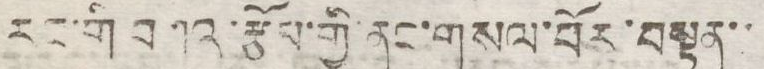རང་གི བཀའ་རྩོམ་གྱི་ནང་གསལ་བོར་བསྟན་་
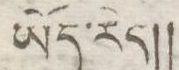ཡོད་རེད།།
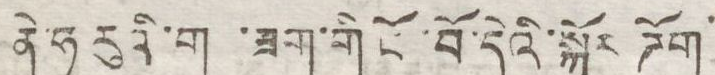ནེ་ཧ རུའི་ག ་ཟག་གི ངོ་བོ་དེའི་སྐོར ཌོག
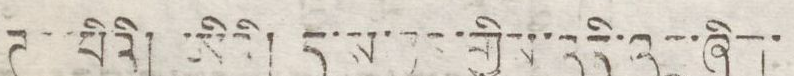ཊ ་པིའི། ཨིའི། ད་ས་ཉུང་གྱིས་འདི་འདྲ་ཞིག་
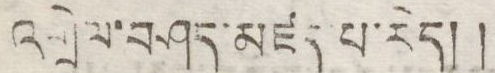འགྲེལ་བཤད་མཛད་པ་རེད། །
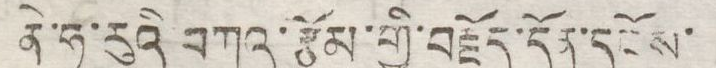ནེ་ཧ་རུའི བཀའ་རྩོམ་གྱི་བརྗོད་དོན་དངོས་
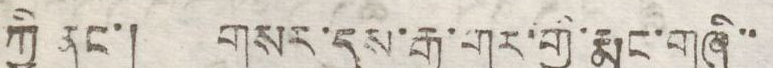ཀྱི ནང་། གསར་དུས་རྒྱ་གར་གྱི་རྨང་གཞི་་
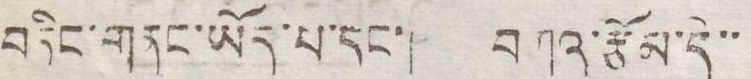བཏིང་གནང་ཡོད་པ་དང་། བཀའ་རྩོམ་དེ་་
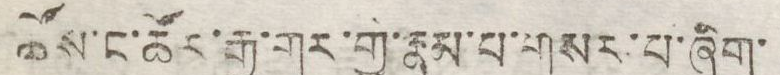ཚོས་ང་ཚོར་རྒྱ་གར་གྱི་རྣམ་པ་གསར་པ་ཞིག་
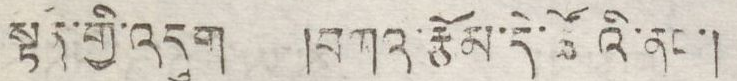སྟན་གྱི་འདུག །བཀའ་རྩོམ་དེ་ཚོའི་ནང་།
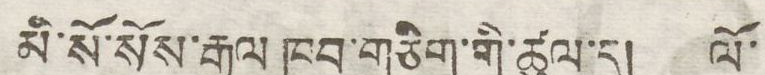མི་སོ་སོས་རྒྱལ་ཁབ་གཅིག་གི་ཚུལ་དུ། ལོ་
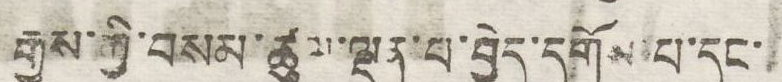རྒྱུས་ཀྱི་བསམ་ཚུལ་ལྡན་པ་བྱེད་དགོས་པ་དང་
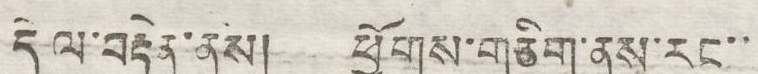དེ ལ་བརྟེན་ནས། ཕྱོགས་གཅིག་ནས་རང་་
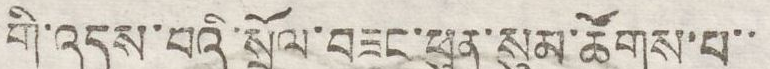གི་འདས་པའི་སྲོལ་བཟང་ཕུན་སུམ་ཚོགས་པ་་
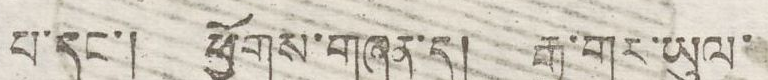པ་དང་། ཕྱོགས་གཞན་དུ། རྒྱ་གར་ཡུལ་
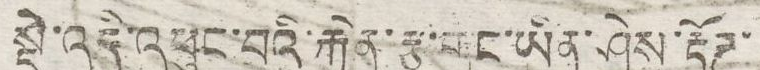སྡེ་འདི་འཕུང་བའི་རྐྱེན་རྩ་གང་ཡིན་ཤེས་རྟོཌ་
